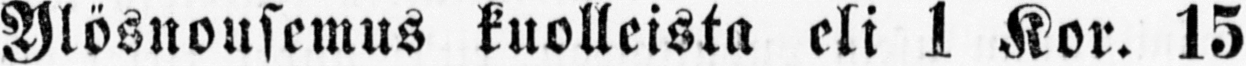Ylösnousemus kuolleista eli 1 Kor. 15
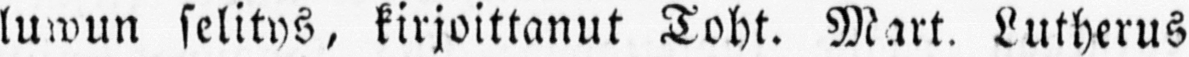luwun selitys, kirjoittanut Toht. Mart. Lutherus
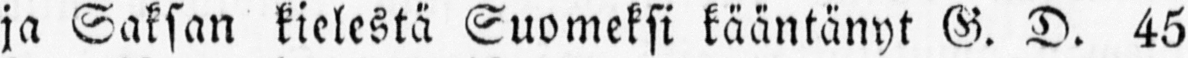ja Saksan kielestä Suomeksi kääntänyt G. D. 45
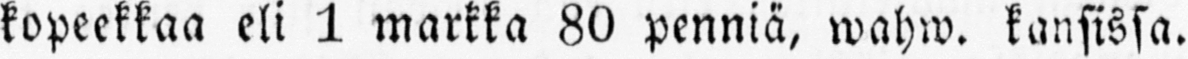kopeekkaa eli 1 markka 80 penniä, wahw. kansissa.
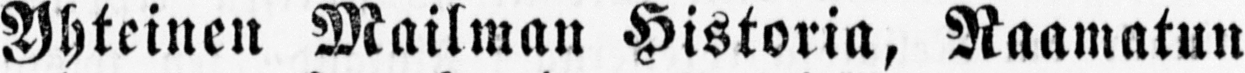Yhteinen Mailman Historia, Raamatun
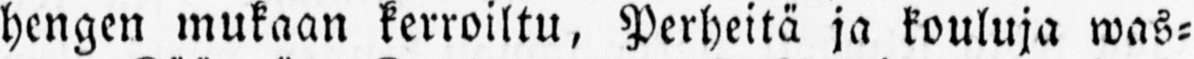hengen mukaan kerroiltu, Perheitä ja kouluja was-
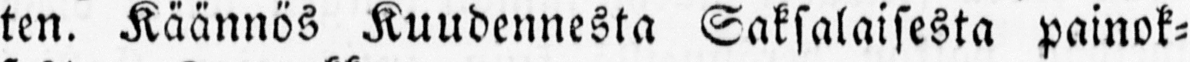ten. Käännös Kuudennesta Saksalaisesta painok-
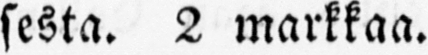sesta. 2 markkaa.
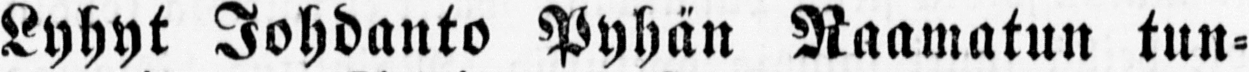Lyhyt Johdanto Pyhän Raamatun tun-
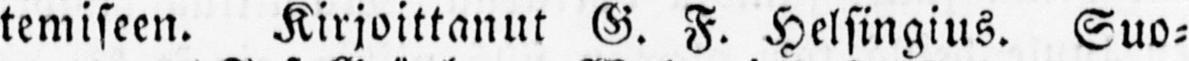temiseen. Kirjoittanut G. F. Helsingius. Suo-
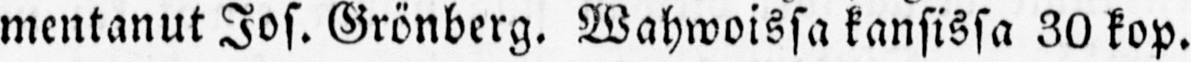mentanut Jos. Grönberg. Wahwoissa kansissa 30 kop.
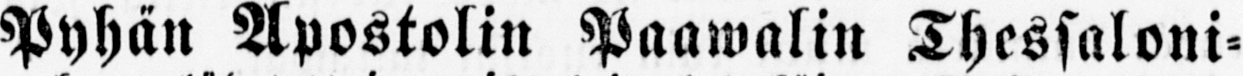Pyhän Apostolin Paawalin Thessaloni-
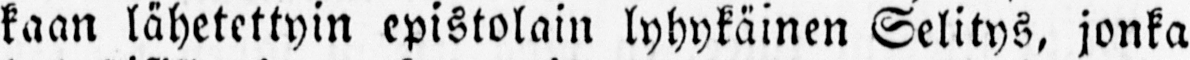kaan lähetettyin epistolain lyhykäinen Selitys, jonka
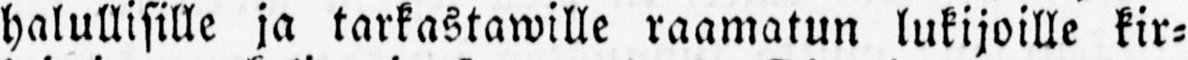halullisille ja tarkastawille raamatun lukijoille kir-
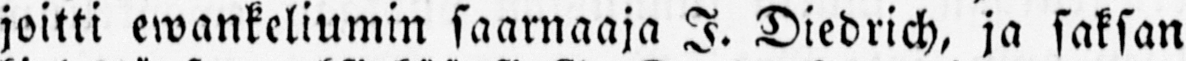joitti ewankeliumin saarnaaja I. Diedrich, ja saksan
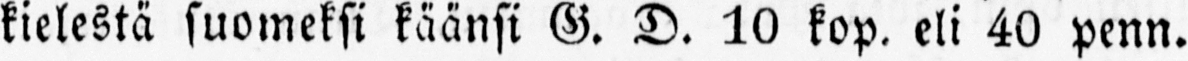kielestä suomeksi käänsi G. D. 10 kop. eli 40 penn.
